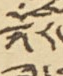སྐོར་
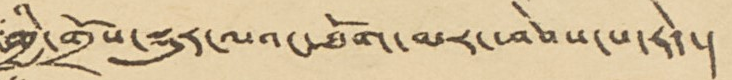གྱི་གྲོས་སྡུར་ལའང་ཐོག་མར་ཕེབས་པ་རེད་།
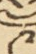༩
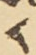༨
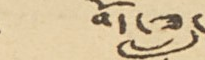བོད་ཟླ་
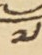༧
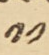༡༡
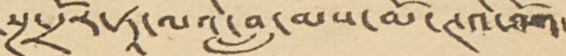སྔ་དྲོར་ཏཱ་ལའི་བླ་མས་མོ་ཊའི་ཐོག་
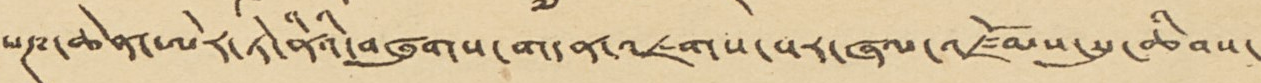པཎ་ཆེན་ཨེར་ཏེ་ནིའི་བཞུགས་གདན་འཇགས་སར་ཞལ་འཛོམས་སུང་ཆིབས་
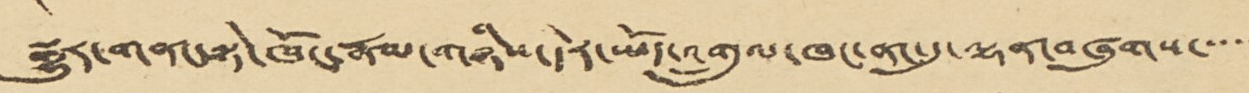སྒྱུར་གནང་སྟེ་ཁོང་རྣམ་གཉིས་དེར་ཡོད་འགྲུལ་ཁང་ནང་དུ་ལྷན་བཞུགས་་་་་
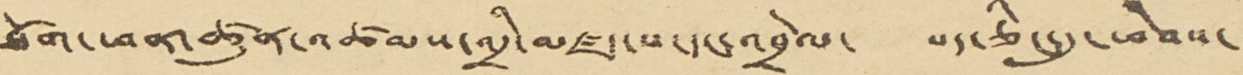ཐོག་ཕན་ཚུན་འཚམས་འདྲི་མཛད་པ་དང་འབྲེལ་ པད་ཅིང་དུ་ཕེབས་
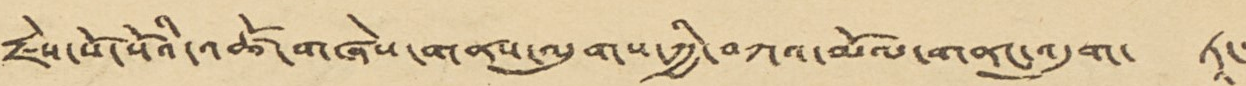རྗེས་སོ་སོའི་འཚོ་གཞེས་གནས་ལུགས་ཀྱི་བཀའ་མོལ་གནང་འདུག་ ཏཱ་་་
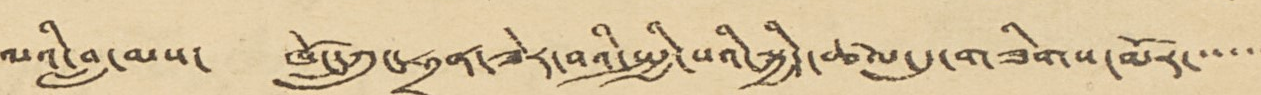ལའི་བླ་མས་ ཁོང་ཀྲུང་ཧྲན་ཟེར་བའི་སྤྱི་པའི་སྐྱིད་ཚལ་དུ་གཟིགས་མོར་་་་་་
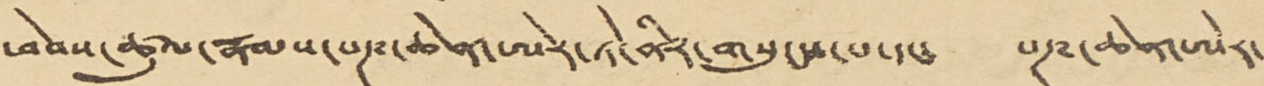ཕེབས་ཚུལ་རྣམས་པཎ་ཆེན་ཨེར་ཏེ་ནིར་གསུངས་པ་དང་ པཎ་ཆེན་ཨེར་
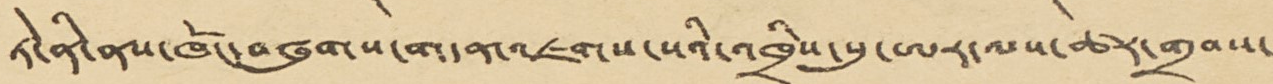ཏེ་ནི་ནས་ཁོང་བཞུགས་གདན་འཇགས་པའི་འཁྲིས་སུ་ཨར་ལས་ཚར་གྲབས་
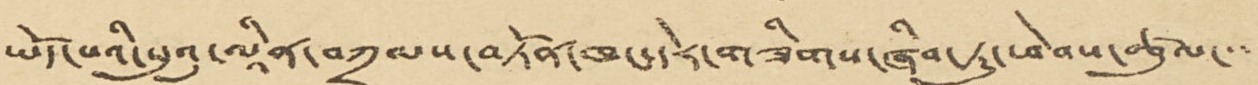ཡོད་པའི་སུའུ་ལཱིན་བཀྲམས་བཏོན་ཁང་དེར་གཟིགས་ཞིབ་ཏུ་ཕེབས་ཚུལ་་་་
